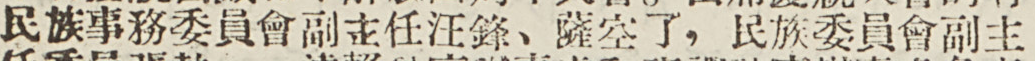民族事務委員會副主任汪鋒、薩空了，民族委員會副主
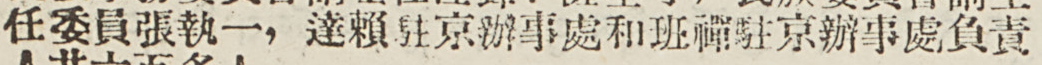任委員張執一，達賴駐京辦事處和班禪駐京辦事處負責
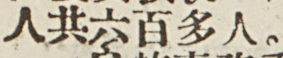人共六百多人。
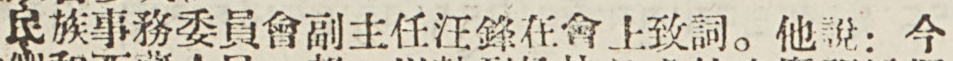民族事務委員會副主任汪鋒在會上致詞。他說：今
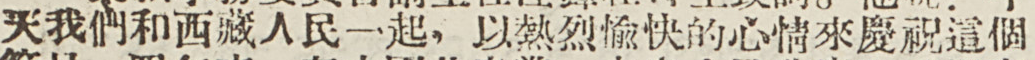天我們和西藏人民一起，以熱烈愉快的心情來慶祝這個
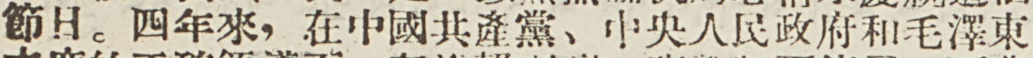節日。四年來，在中國共產黨、中央人民政府和毛澤東
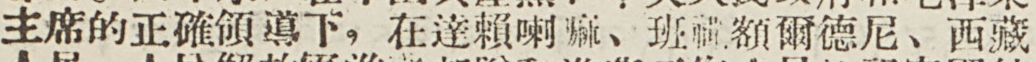主席的正確領導下。在達賴喇嘛、班禪額爾德尼、西藏
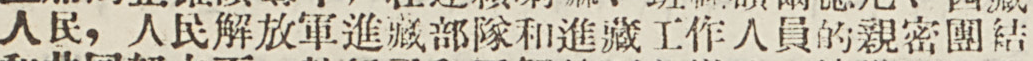人民，人民解放軍進藏部隊和進藏工作人員的親密團結
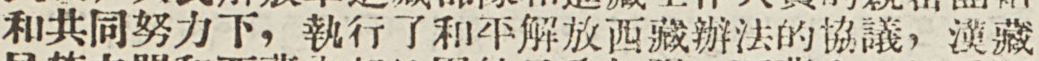和共同努力下，執行了和平解放西藏辦法的協議，漢藏
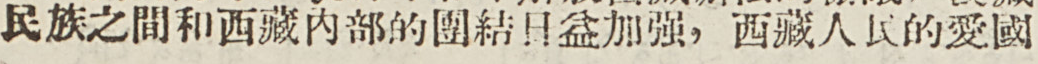民族之間和西藏內部的團結日益加強，西藏人民的愛國
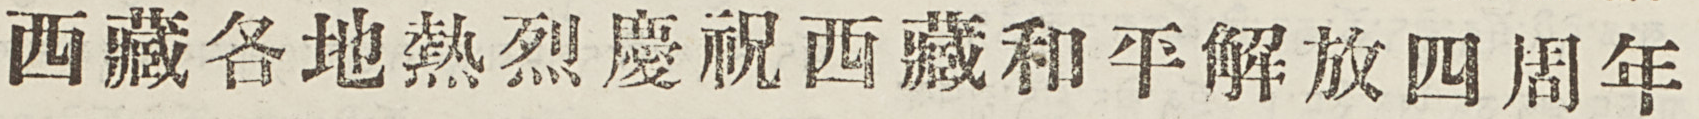西藏各地熱烈慶祝西藏和平解放四周年
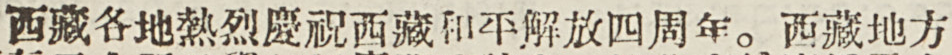西藏各地熱烈慶祝西藏和平解放四周年。西藏地方
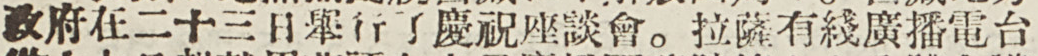政府在二十三日舉行了慶祝座談會。拉薩有綫廣播電台
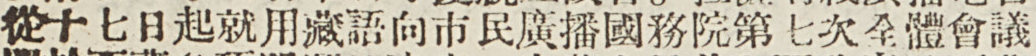從十七日起就用藏語向市民廣播國務院第七次全體會議
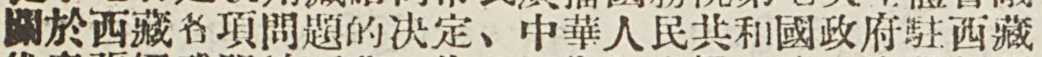關於西藏各項問題的決定、中華人民共和國政府駐西藏
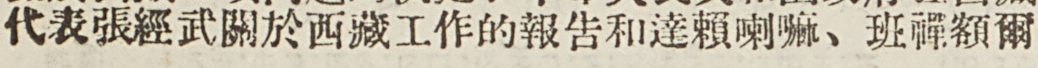代表張經武關於西藏工作的報告和達賴喇嘛、班禪額爾
